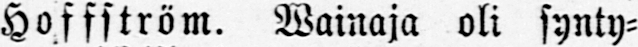Hoffström. Wainaja oli synty-
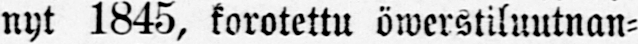nyt 1845, korotettu öwerstiluutnan-
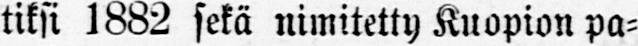tiksi 1882 sekä nimitetty Kuopion pa-
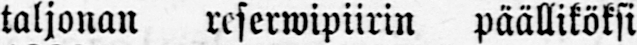taljonan reserwipiirin päälliköksi
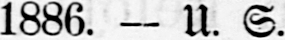1886. — U. S.
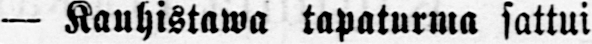— Kauhistawa tapaturma sattui
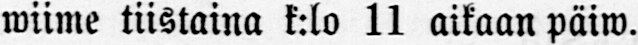wiime tiistaina k:lo 11 aikaan päiw.
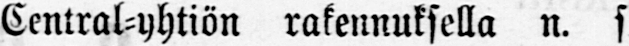Central-yhtiön rakennuksella n. s
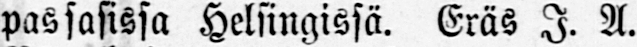passasissa Helsingissä. Eräs I. A.
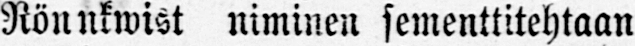Rönnkwist niminen sementtitehtaan
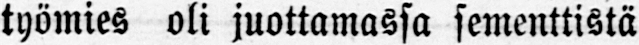työmies oli juottamassa sementtistä
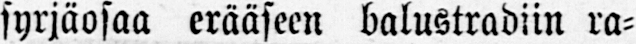syrjäosaa erääseen balustradiin ra-
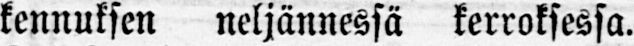kennuksen neljännessä kerroksessa.
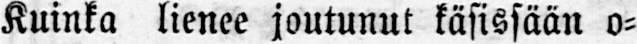Kuinka lienee joutunut käsissään o-
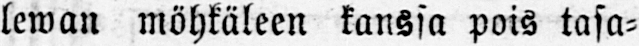lewan möhkäleen kanssa pois tasa-
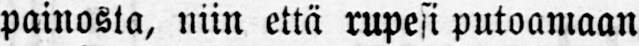painosta, niin että rupesi putoamaan
